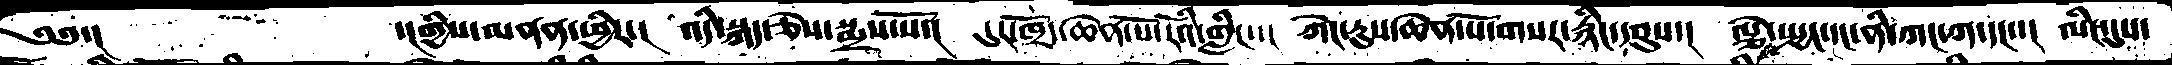༄༅་།      ་།གྱིས་མནན་ཕྱིར་།  འདི་སྐད་ཅེས་སྨྲས་སོ་།  དུར་ཁྲོད་ཆེན་པོ་རོའི་གླིང་་།   ཀེང་རུས་ཆེན་པོ་གསར་རྙིང་དབུས་།  ལྕེ་སྤྱང་དང་ནི་ཀང་ཀ་དང་་།  ལིང་དུས་
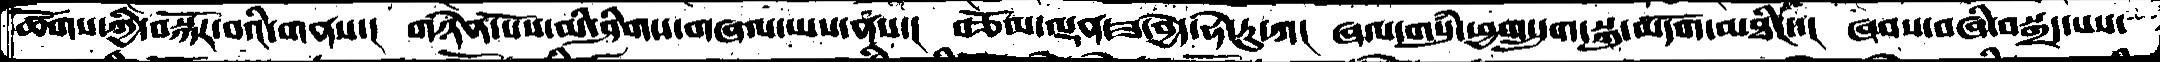ཚོགས་ཀྱི་བསྐོར་བའི་གནས་།  གཉེན་པོས་མི་ཤིགས་གཞལ་ཡས་ནས་།   བཅོམ་ལྡན་ཟ་བྱེད་ཧེ་རུ་ཀ།  ཞལ་གསུཾ་ཕྱག་དྲུག་སྐུ་མདོག་མཐིང་་།  ཞབས་བཞི་བསྒྲད་པས་
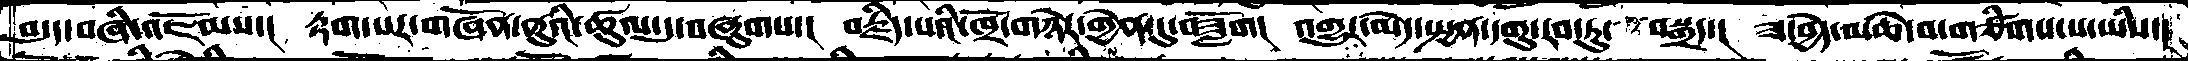བདུད་བཞི་འཇོམས་།  རྟག་པར་གཞོན་ནུའི་ཚུལ་དུ་བཞུགས་།  བརྗིད་པའི་ཁྲོ་གཉེར་གྱེན་དུ་བཟློག།  འགྱུར་མེད་སྤྱན་དགུ་རབ་ཏུ་བསྒྲད་།  ཟ་བྱེད་མཆེ་བ་གཙིགས་པ་ཡིས་།
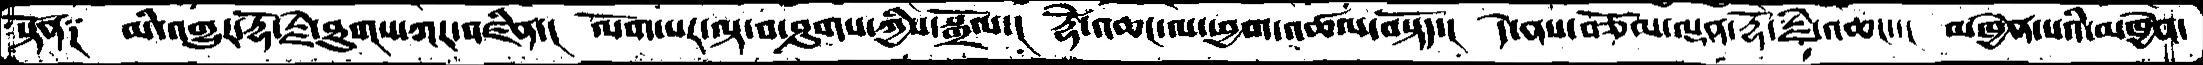སྟོན༑  མི་འགྱུར་རྡོ་རྗེ་ཐུགས་ཀར་འཛིན་།  ལོག་པར་ལྟ་བ་ཤུགས་ཀྱིས་སྒྲོལ་།  རྡོེ་འཆང་ལ་ཕྱག་འཚལ་བསྟོད་།  དེ་ནས་བཅོམ་ལྡན་རྡོ་རྗེ་འཆང་་།  མཁྱེན་པའི་མཁྱེན་
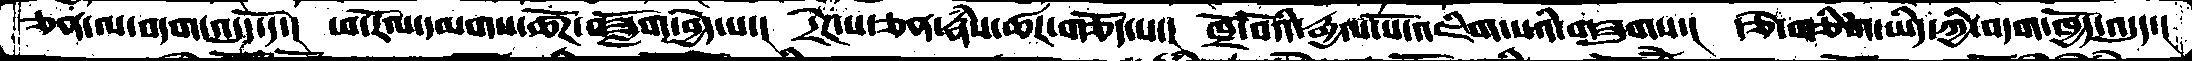ཅན་ལ་བདག་འདུད་དོ་།  ཕ་རོལ་དམགས་ཚོཌ་བཟློག་བྱེད་པ་།  དྲེཌ་པ་ཅན་རྣཾས་ཚར་གཅོད་པ་།  ཁྲོ་བོའི་རྒྱལ་པོ་འཇིག་པའི་གཟུགས་།  རྩེ་གཅིག་ཡིད་ཀྱི་བདག་ཁྱོད་འདུད་།
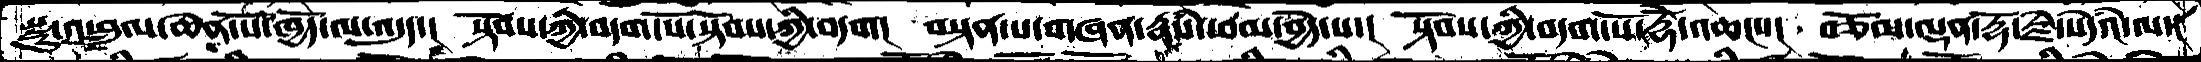སྫུ་འཕྲུལ་ཆེན་པོ་ཁྱོད་ལ་འདུད་།  སྟོབས་ཀྱི་བདག་པོ་སྟོབས་ཀྱི་བདག།  བསྟན་པ་གཞན་རྣཾས་ཕམ་བྱེད་པ་། སྟོབས་ཀྱི་བདག་པོ་རྡོེ་འཆང་་།  བཅོམ་ལྡན་རྡོ་རྗེ་སེཾདའ་ལ་
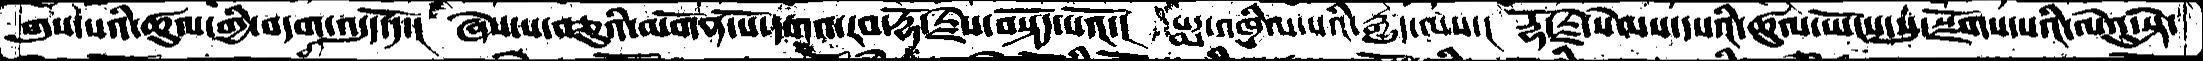གུས་པའི་ཚུལ་གྱི་བདག་འདུད་ོ་།  ཞེས་ས་བཅུའི་མགོན་པོ་དགའ་རབ་རྡོ་རྗེས་བསྟོད་པའོ་།  པདྨ་འཁྱིལ་པའི་རྒྱུད་ལས་།  རྡོ་རྗེ་སེམས་དཔའི་ཚུལ་ཡོངས་སུ་སྫོགས་པའི་ལེའུ་སྟེ་
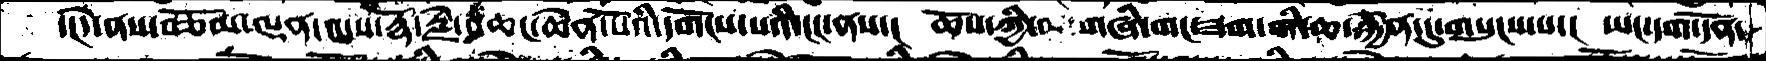་།དེ་ནས་བཅོམ་ལྡན་འདས་རྡོ་རྗེ་འཆང་ཆེན་པོའི་དགོངས་པའི་ངང་ནས་།  ཆོས་ཀྱི་   གཞི་གང་ཟག་གི་ཆ་རྐྱེན་དུ་གསུངས་པ་།  ཡང་དག་དོན་
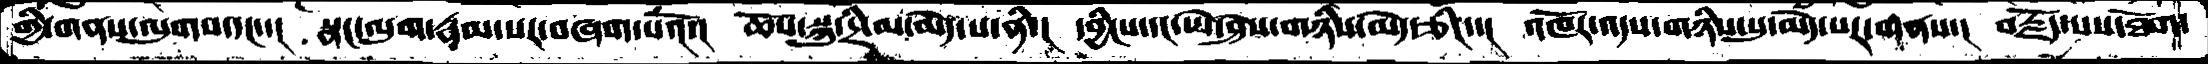གྱི་གནས་ལུགས་དང་་།  སྣང་ལུག་རྣམ་པར་བཞག་པའོ་།  ཆོས་སྐུ་དྲི་མ་མེད་པ་ནི་།  དབྱིངས་དང་ཡེ་ཤེས་གཉིས་མེད་ཅིང་་།  འཁོར་འདས་གཉིས་སུ་མེད་པར་གནས་།  བརྗོད་པས་ཐོག་
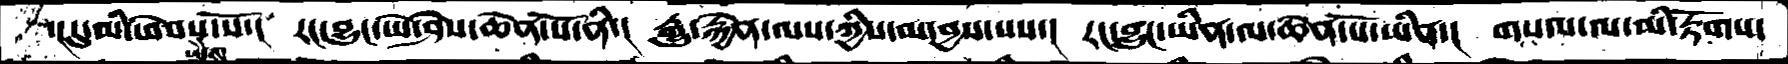་།དུ་མི་ཕེབས་སོ་།  རང་བྱུང་ཡེ་ཤེས་ཆེན་པོ་ནི་། རྒྱུ་རྐྱེན་ལས་ཀྱིས་མ་བྱས་པས་། རང་བྱུང་ཡིན་ལ་ཆེན་པོ་ཡིན་། གསལ་ལ་མི་རྟོགས་
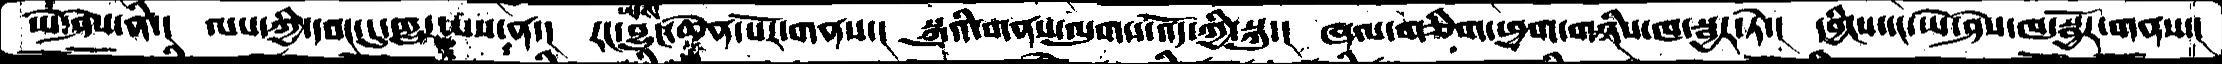ཡེ་ཤེས་ནི་། ལས་ཀྱི་དབང་དུ་གྱུར་བས་ན་། རང་བྱུང་ཡཻས་ཆེན་པོར་གནས་། སྐུའི་གནས་ལུགས་འོད་ཀྱི་སྐུ་། ཞལ་གཅིག་ཕྱག་གཉིས་ཁ་སྦྱར་ཏེ་། དབྱིངས་དང་ཡེ་ཤེས་ཁ་སྦྱོར་གནས་།
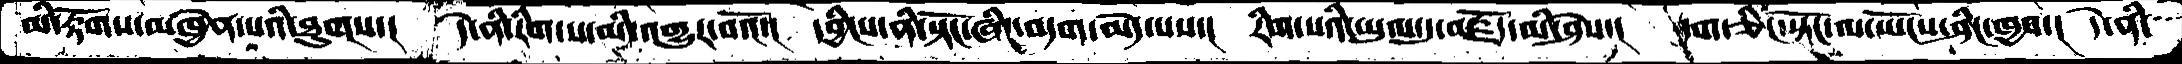མི་རྟོགས་མཁྱེན་པའི་ཐུགས་།  དེ་ནི་རིག་པ་མི་འགྱུར་བའོ་།  དབྱིངས་ནི་སྟོང་ཞིང་བདག་མེད་པས་།  རིག་པའི་ཡུལ་དུ་བརྗོད་མི་ཤེས་།  དག་ཅིང་སྟོང་ལ་ཡོངས་ཤིང་ཁྱབ་།  དེ་ནི་
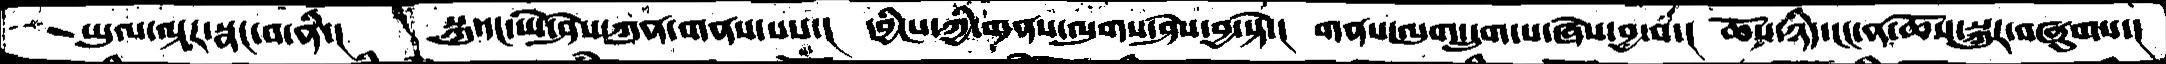ཡུལ་ལྟར་སྣང་བ་ནི་།  སྐུ་དང་ཡེ་ཤེས་ཀུན་གནས་པས་།  དབྱིངས་ཀྱི་གནས་ལུགས་ཤེས་བྱ་སྟེ་།  གནས་ལུག་དྲུག་པ་ཞེས་བྱ་བ་།  ཆོས་ཉིད་ངང་ན་ཆོས་སྐུར་བཞུགས་།
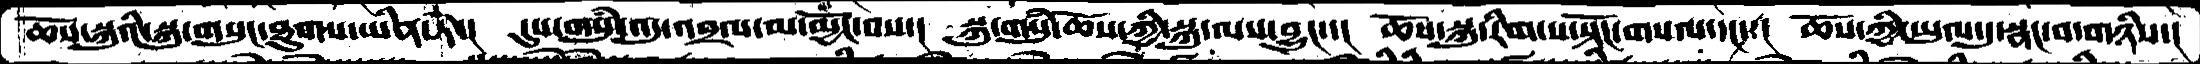ཆོས་སྐུའི་སྐུ་གསུང་ཐུགས་ཡིན་ཏེ་།  དུས་གསུཾ་འདུ་འབྲལ་མ་མྱོང་བས་།  སྐུ་གསུཾ་ཆོས་ཀྱི་སྐུ་ལས་བྱུང་་།  ཆོས་སྐུ་རིག་པ་སྟོང་གསལ་དང་་།  ཆོས་ཀྱི་ཡུལ་དུ་སྣང་བ་གཉིས་།
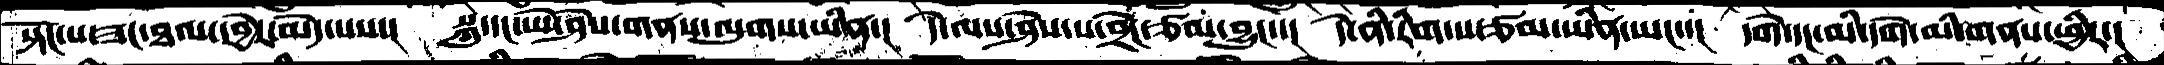སྟོང་པ་ཟང་ཐལ་དབྱེར་མེད་པས་།  སྐུ་དང་ཡེ་ཤེས་གནས་ལུགས་ཡིན་།  དེ་ལས་ཤེས་པ་བྲེང་ཙམ་བྱུང་་།  དེ་ནི་རིག་པ་ཙམ་ཡིན་ཡང་་།  དགེ་དང་མི་དགེ་མི་གནས་ཕྱིར་།
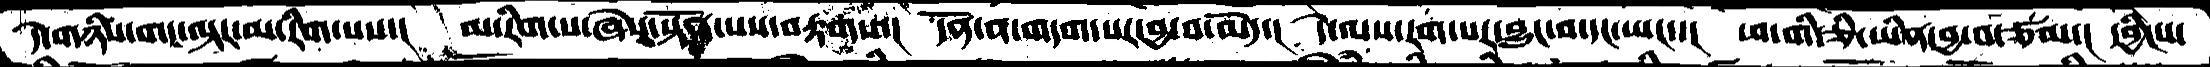དེ་གཉིས་གང་ལྟར་མ་རིག་པས་།  མ་རིག་པ་ཞེས་སྟོན་པས་བརྟགས་།  དོན་ན་གདག་པར་བྱ་བ་མེད་།  དེ་ལས་རག་པར་བྱུང་བ་དང་ཡང་་།  ཕ་གི་ཅི་ཡིན་བྱ་བ་ཙམ་།  དབྱིངས་
